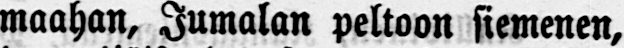maahan, Jumalan peltoon siemenen,
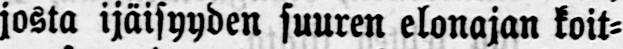josta ijäisyyden suuren elonajan koit-
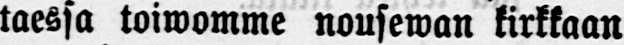taessa toiwomme nousewan kirkkaan
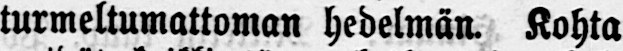turmeltumattoman hedelmän. Kohta
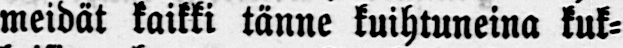meidät kaikki tänne kuihtuneina kuk-
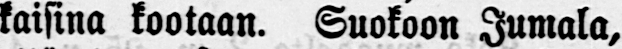kaisina kootaan. Suokoon Jumala,
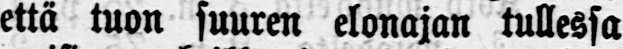että tuon suuren elonajan tullessa
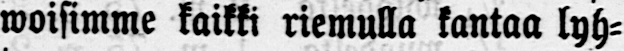woisimme kaikki riemulla kantaa lyh-
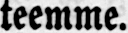teemme.
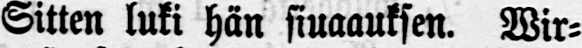Sitten luki hän siuaauksen. Wir-
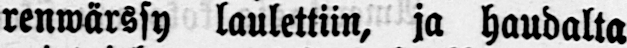renwärssy laulettiin, ja haudalta
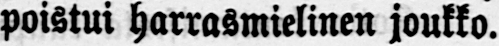poistui harrasmielinen joukko. — —
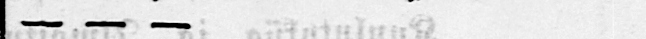— — —
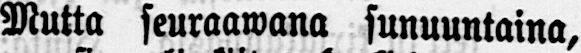Mutta seuraawana sunuuntaina,
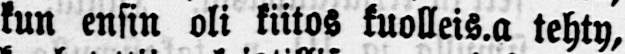kun ensin oli kiitos kuolleis.a tehty,
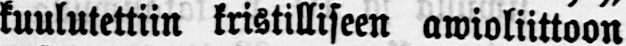kuulutettiin kristilliseen awioliittoon
